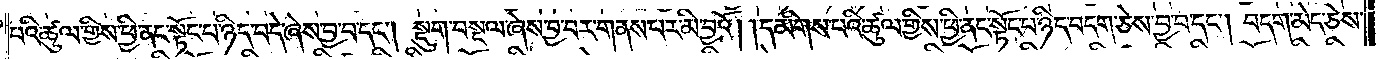པའི་ཚུལ་གྱིས་ཕྱི་ནང་སྟོང་པ་ཉིད་བདེ་ཞེས་བྱ་བ་དང༌། སྡུག་བསྔལ་ཞེས་བྱ་བར་གནས་པར་མི་བྱའོ། །དམིགས་པའི་ཚུལ་གྱིས་ཕྱི་ནང་སྟོང་པ་ཉིད་བདག་ཅེས་བྱ་བ་དང༌། བདག་མེད་ཅེས་
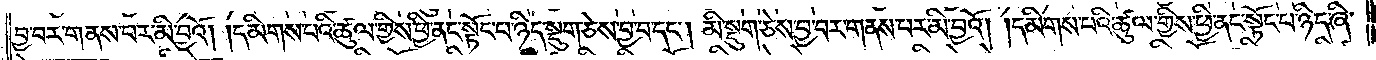བྱ་བར་གནས་པར་མི་བྱའོ། །དམིགས་པའི་ཚུལ་གྱིས་ཕྱི་ནང་སྟོང་པ་ཉིད་སྡུག་ཅེས་བྱ་བ་དང༌། མི་སྡུག་ཅེས་བྱ་བར་གནས་པར་མི་བྱའོ། །དམིགས་པའི་ཚུལ་གྱིས་ཕྱི་ནང་སྟོང་པ་ཉིད་ཞི་
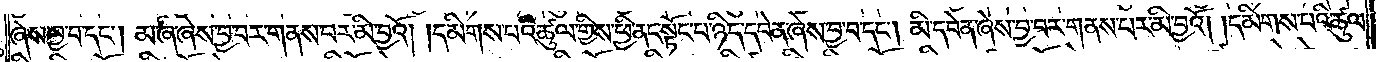ཞེས་བྱ་བ་དང༌། མ་ཞི་ཞེས་བྱ་བར་གནས་པར་མི་བྱའོ། །དམིགས་པའི་ཚུལ་གྱིས་ཕྱི་ནང་སྟོང་པ་ཉིད་དབེན་ཞེས་བྱ་བ་དང༌། མི་དབེན་ཞེས་བྱ་བར་གནས་པར་མི་བྱའོ། །དམིགས་པའི་ཚུལ་
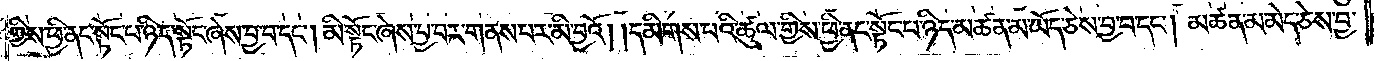གྱིས་ཕྱི་ནང་སྟོང་པ་ཉིད་སྟོང་ཞེས་བྱ་བ་དང༌། མི་སྟོང་ཞེས་བྱ་བར་གནས་པར་མི་བྱའོ། །དམིགས་པའི་ཚུལ་གྱིས་ཕྱི་ནང་སྟོང་པ་ཉིད་མཚན་མ་ཡོད་ཅེས་བྱ་བ་དང༌། མཚན་མ་མེད་ཅེས་བྱ་
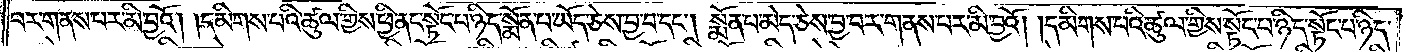བར་གནས་པར་མི་བྱའོ། །དམིགས་པའི་ཚུལ་གྱིས་ཕྱི་ནང་སྟོང་པ་ཉིད་སྨོན་པ་ཡོད་ཅེས་བྱ་བ་དང༌། སྨོན་པ་མེད་ཅེས་བྱ་བར་གནས་པར་མི་བྱའོ། །དམིགས་པའི་ཚུལ་གྱིས་སྟོང་པ་ཉིད་སྟོང་པ་ཉིད་
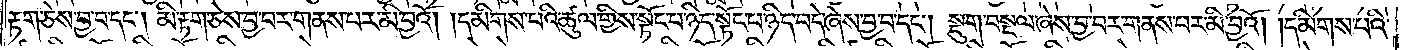རྟག་ཅེས་བྱ་བ་དང༌། མི་རྟག་ཅེས་བྱ་བར་གནས་པར་མི་བྱའོ། །དམིགས་པའི་ཚུལ་གྱིས་སྟོང་པ་ཉིད་སྟོང་པ་ཉིད་བདེ་ཞེས་བྱ་བ་དང༌། སྡུག་བསྔལ་ཞེས་བྱ་བར་གནས་པར་མི་བྱའོ། །དམིགས་པའི་
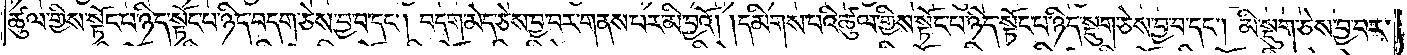ཚུལ་གྱིས་སྟོང་པ་ཉིད་སྟོང་པ་ཉིད་བདག་ཅེས་བྱ་བ་དང༌། བདག་མེད་ཅེས་བྱ་བར་གནས་པར་མི་བྱའོ། །དམིགས་པའི་ཚུལ་གྱིས་སྟོང་པ་ཉིད་སྟོང་པ་ཉིད་སྡུག་ཅེས་བྱ་བ་དང༌། མི་སྡུག་ཅེས་བྱ་བར་
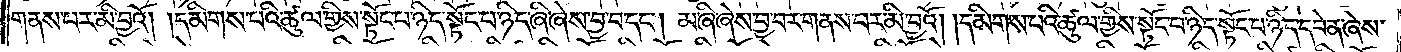གནས་པར་མི་བྱའོ། །དམིགས་པའི་ཚུལ་གྱིས་སྟོང་པ་ཉིད་སྟོང་པ་ཉིད་ཞི་ཞེས་བྱ་བ་དང༌། མ་ཞི་ཞེས་བྱ་བར་གནས་པར་མི་བྱའོ། །དམིགས་པའི་ཚུལ་གྱིས་སྟོང་པ་ཉིད་སྟོང་པ་ཉིད་དབེན་ཞེས་
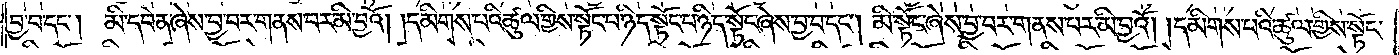བྱ་བ་དང༌། མི་དབེན་ཞེས་བྱ་བར་གནས་པར་མི་བྱའོ། །དམིགས་པའི་ཚུལ་གྱིས་སྟོང་པ་ཉིད་སྟོང་པ་ཉིད་སྟོང་ཞེས་བྱ་བ་དང༌། མི་སྟོང་ཞེས་བྱ་བར་གནས་པར་མི་བྱའོ། །དམིགས་པའི་ཚུལ་གྱིས་སྟོང་
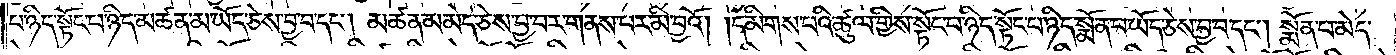པ་ཉིད་སྟོང་པ་ཉིད་མཚན་མ་ཡོད་ཅེས་བྱ་བ་དང༌། མཚན་མ་མེད་ཅེས་བྱ་བར་གནས་པར་མི་བྱའོ། །དམིགས་པའི་ཚུལ་གྱིས་སྟོང་པ་ཉིད་སྟོང་པ་ཉིད་སྨོན་པ་ཡོད་ཅེས་བྱ་བ་དང༌། སྨོན་པ་མེད་
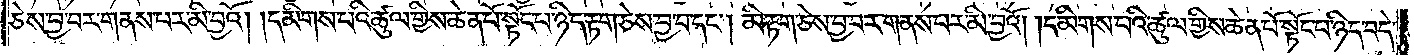ཅེས་བྱ་བར་གནས་པར་མི་བྱའོ། །དམིགས་པའི་ཚུལ་གྱིས་ཆེན་པོ་སྟོང་པ་ཉིད་རྟག་ཅེས་བྱ་བ་དང༌། མི་རྟག་ཅེས་བྱ་བར་གནས་པར་མི་བྱའོ། །དམིགས་པའི་ཚུལ་གྱིས་ཆེན་པོ་སྟོང་པ་ཉིད་བདེ་
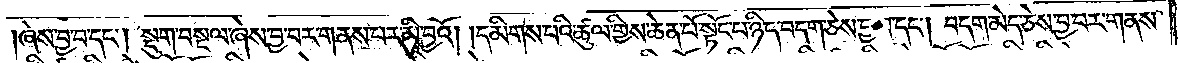ཞེས་བྱ་བ་དང༌། སྡུག་བསྔལ་ཞེས་བྱ་བར་གནས་པར་མི་བྱའོ། །དམིགས་པའི་ཚུལ་གྱིས་ཆེན་པོ་སྟོང་པ་ཉིད་བདག་ཅེས་བྱ་བ་དང༌། བདག་མེད་ཅེས་བྱ་བར་གནས་
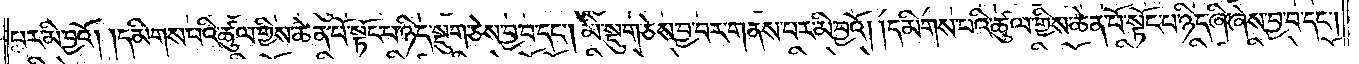པར་མི་བྱའོ། །དམིགས་པའི་ཚུལ་གྱིས་ཆེན་པོ་སྟོང་པ་ཉིད་སྡུག་ཅེས་བྱ་བ་དང༌། མི་སྡུག་ཅེས་བྱ་བར་གནས་པར་མི་བྱའོ། །དམིགས་པའི་ཚུལ་གྱིས་ཆེན་པོ་སྟོང་པ་ཉིད་ཞི་ཞེས་བྱ་བ་དང༌།
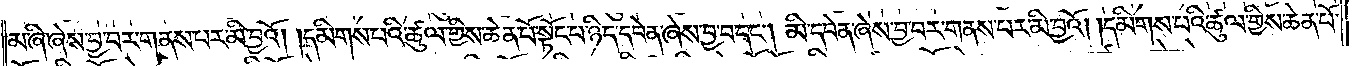མ་ཞི་ཞེས་བྱ་བར་གནས་པར་མི་བྱའོ། །དམིགས་པའི་ཚུལ་གྱིས་ཆེན་པོ་སྟོང་པ་ཉིད་དབེན་ཞེས་བྱ་བ་དང༌། མི་དབེན་ཞེས་བྱ་བར་གནས་པར་མི་བྱའོ། །དམིགས་པའི་ཚུལ་གྱིས་ཆེན་པོ་
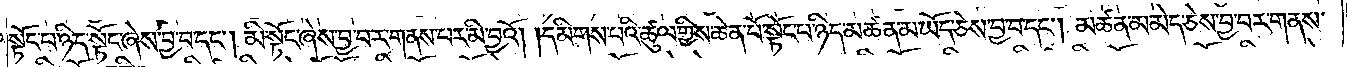སྟོང་པ་ཉིད་སྟོང་ཞེས་བྱ་བ་དང༌། མི་སྟོང་ཞེས་བྱ་བར་གནས་པར་མི་བྱའོ། །དམིགས་པའི་ཚུལ་གྱིས་ཆེན་པོ་སྟོང་པ་ཉིད་མཚན་མ་ཡོད་ཅེས་བྱ་བ་དང༌། མཚན་མ་མེད་ཅེས་བྱ་བར་གནས་
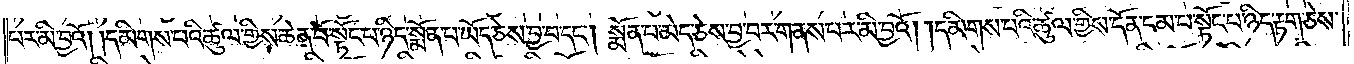པར་མི་བྱའོ། །དམིགས་པའི་ཚུལ་གྱིས་ཆེན་པོ་སྟོང་པ་ཉིད་སྨོན་པ་ཡོད་ཅེས་བྱ་བ་དང༌། སྨོན་པ་མེད་ཅེས་བྱ་བར་གནས་པར་མི་བྱའོ། །དམིགས་པའི་ཚུལ་གྱིས་དོན་དམ་པ་སྟོང་པ་ཉིད་རྟག་ཅེས་
